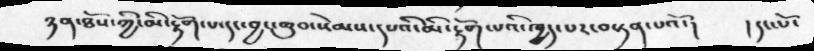ཉན་ཐོས་ཀྱི་མི་རྟོག་པ་དང་བྱང་ཆུབ་སེམས་དཔའི་མི་རྟོག་པའི་ཁྱད་པར་བསྟན་པའོ་།  །དང་པོ་
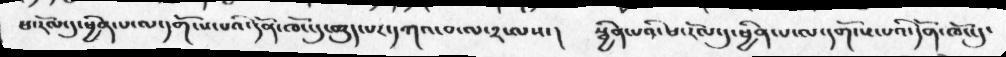ཕ་རོལ་དུ་ཕྱིན་པ་ལ་དགོངས་པའི་དོན་ཁོང་དུ་ཆུད་པར་དཀའ་བ་ལ་༢་ལས་།     སྦྱིན་པའི་ཕ་རོལ་དུ་ཕྱིན་པ་ལ་དགོངས་པའི་དོན་ཁོང་དུ་
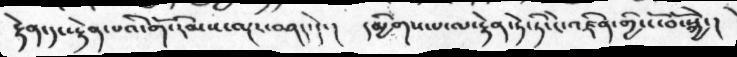རྟེན་དང་རྟེན་པའི་གོ་རིམས་ལྔར་བཤད་དེ་།      དམྱིགས་པ་ལ་རྟེན་ཏེ་ཏི་ངེ་འཛིན་གྱི་ངོ་བོ་སྐྱེ་།
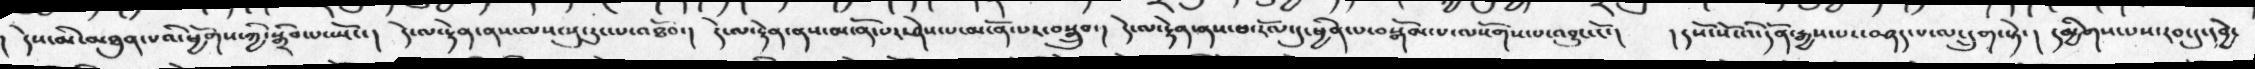། དེས་མི་མཐུན་པའི་ཕྱོགས་ཀྱི་སྒྲིབ་པ་སྤོང་།    དེ་ལ་རྟེན་ནས་ལས་སུ་རུང་པ་འཐོབ་།   དེ་ལ་རྟེན་ནས་མངོན་པར་ཤེས་པ་མངོན་པར་བསྒྲུབ་།    དེ་ལ་རྟེན་ནས་ཕ་རོལ་དུ་ཕྱིན་པ་བསྒོམ་པ་ལསོགས་པ་འབྱུང་ངོ་།     །དསོ་སོ་འི་དོན་རྒྱས་པར་བཤད་པ་ལ་དྲུག་སྟེ་།   དམྱིགས་པས་རབ་དུ་དབྱེ་
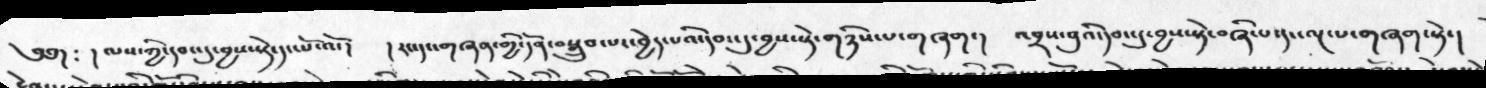༄༅།  ༴  ། ལས་ཀྱི་དབང་དུ་བྱས་སྟེ་དང་པོ་འོ་།    ། རང་དང་གཞན་གྱི་དོན་བསྒྲུབ་པར་བྱེད་པའི་དབང་དུ་བྱས་སྟེ་གཉིས་པ་གཞག་།   འབྲས་བུའི་དབང་དུ་བྱས་སྟེ་བཞི་པ་དང་ལྔ་པ་གཞག་སྟེ་།
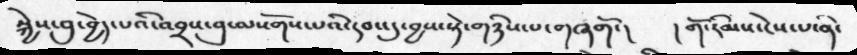སྐྱེས་བུ་བྱེད་པའི་འབྲས་བུ་ལསོགས་པའི་དབང་དུ་བྱས་སྟེ་གཉིས་པ་གཞགོ་།   །གོ་རིམས་ངེས་པ་ནི་
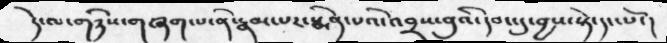དེ་ལ་གཉིས་གཞག་པ་ནི་རྣམ་པར་སྨིན་པའི་འབྲས་བུའི་དབང་དུ་བྱས་སྟེ་དང་པོ་།
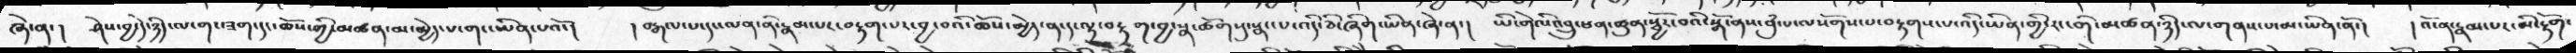ཞེ་ན་།  ཤེས་བྱ་དེ་ཉིད་ལ་གང་ཟག་དང་ཆོས་ཀྱི་མཚན་མ་མྱེད་པ་གང་ཡིན་པའོ་།   །བརྒལ་པ་དང་ལན་ནི་རྣམ་པར་བརྟག་པར་བྱ་བའི་ཆོས་མྱེད་ན་ད་ལྟ་བརྟག་བྱ་སྣ་ཚོགསུ་སྣང་པ་འདི་ཅི་ཞིག་ཡིན་ཞེ་ན་།  ཡི་གེའི་འབྲུ་ཕན་ཚུན་སྦྱོར་བའི་སྒོ་ནས་བུཾ་པ་ལསོགས་པ་བརྟགས་པ་འདི་ཡིན་གྱི་རང་གི་མཚན་ཉིད་ལ་གནས་པ་མ་ཡིན་ནོ་།  །འོ་ན་རྣམ་པར་མི་རྟོག་
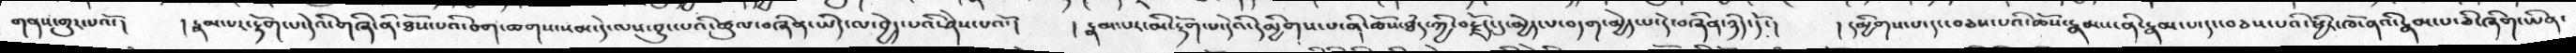གནས་གྱུར་པའོ་།   །རྣམ་པར་རྟོག་པ་དེའི་གཞི་ནི་ཐོས་པའི་བག་ཆགས་སམ་དེ་ལས་བྱུང་པའི་ཚུལ་བཞིན་ཡིད་ལ་བྱེད་པའི་ཤེས་པའོ་།  ། རྣམ་པར་མི་རྟོག་པ་དེའི་དམྱིགས་པ་ནི་ཆོས་ཐདཾ་ཀྱི་བརྗོད་དུ་མྱེད་པ་བདག་མྱེད་པ་དེ་བཞིན་ཉིད་དོ་།  །དམྱིགས་པ་དང་བཅས་པའི་ཆོས་རྣམ་ནི་རྣམ་པ་དང་བཅས་པའི་ཕྱིར་ཁོ་ནའི་རྣམ་པ་ཅི་ཞིག་ཡིན་
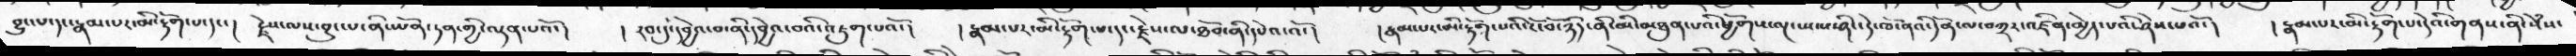བྱུང་པ་དང་རྣམ་པར་མི་རྟོག་པ་དང་།  རྗེས་ལས་བྱུང་པ་ནི་ཡོན་ཏན་གྱི་ལྡན་པའོ་།  །རབ་དུ་དབྱེའ་བ་ནི་དབྱེའ་བའི་འཇུག་པའོ་།  །རྣམ་པར་རྟོག་པ་དང་རྗེས་ལ་ཐོབ་ནི་དཔེའ་འོ་།  ། རྣམ་པར་མི་རྟོག་པའི་ངོ་བོ་ཉིད་ནི་མཐུན་པའི་ཕྱོགས་ལྔ་སྤངས་ཤིང་དེ་ཁ་ནའི་དོན་ལ་བཀྲར་འཛིན་མྱེད་པའི་ཤེས་པའོ་།  །རྣམ་པར་མི་རྟོག་པ་དེའི་གནས་ནི་སེཾས་
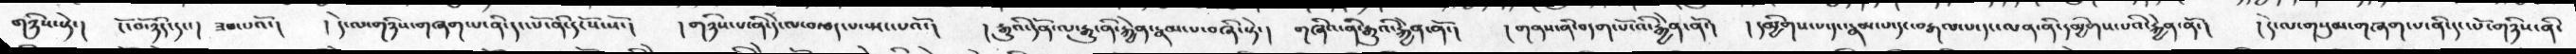གཉིས་སྟེ་།    ངོ་བོ་ཉིད་དང་།   ཟབ་པའོ་།    ། དེ་ལ་གཉིས་གཞག་པ་ནི་དང་པོ་ནི་དངོས་སོ་།   ། གཉིས་པ་ནི་དེ་ལ་བརྩད་པ་སྤང་པའོ་།   ། རྒྱུའི་དོན་ལ་རྒྱུ་ནི་རྐྱེན་རྣམ་པ་བཞི་སྟེ་།   གཞིའ་ནི་རྒྱུའི་རྐྱེན་ནོ་།    ། གནས་ནི་བདག་པོ་འི་རྐྱེན་ནོ་།   ། དམྱིགས་པ་དང་རྣམ་པ་དང་བརྒལ་པ་དང་ལན་ནི་དམྱིགས་པའི་རྐྱེན་ནོ་།    ། དེ་ལ་གསུམ་གཞག་པ་ནི་དང་པོ་གཉིས་ནི་
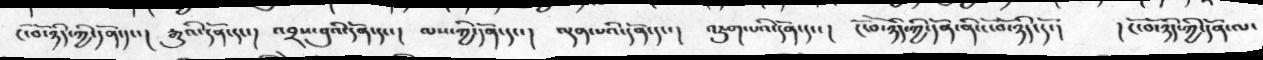ངོ་བོ་ཉིད་ཀྱི་དོན་དང་།   རྒྱུའི་དོན་དང་།   འབྲས་བུའི་དོན་དང་།   ལས་ཀྱི་དོན་དང་།   ལྡན་པའི་དོན་དང་།   འཇུག་པའི་དོན་དང་།  ངོ་བོ་ཉིད་ཀྱི་དོན་ནི་ངོ་བོ་ཉིད་དོ་།   ། ངོ་བོ་ཉིད་ཀྱི་དོན་ལ་
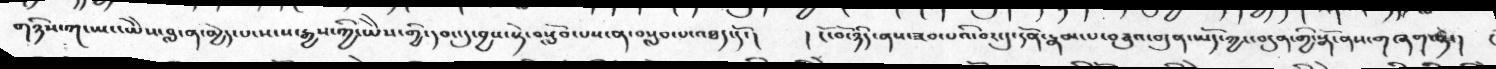གཉིས་ཀ་ཡང་ཡཻས་བླ་ན་མྱེད་པ་སངས་རྒྱས་ཀྱི་ཡཻས་གྱི་དབང་དུ་བྱས་སྟེ་བསློབ་པས་ན་བསླབ་པ་འཐད་དོ་།   ། ངོ་བོ་ཉིད་ནས་ཟབ་པའི་བར་དུ་དོན་རྣམ་པ་བཅུའ་བདུན་ཡོད་ཀྱང་བདུན་གྱི་སྒོ་ནས་གཞག་སྟེ་།
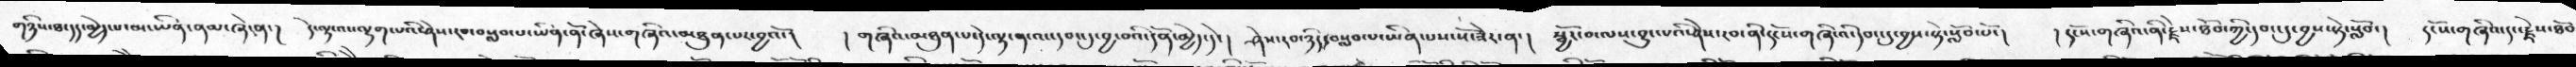གཉིས་ཐ་དད་མྱེད་པ་མ་ཡིན་ནམ་ཞེ་ན་།    དེ་ལྟ་འང་ལྷག་པའི་ཤེས་རབ་བསླབ་པ་ཡིན་ནོ་ཞེས་གཞིའ་མཐུན་པར་བྱའོ་།     ། གཞིའ་མཐུན་པ་དེ་ལྟ་ན་འང་དབང་དུ་བྱ་བའི་དོན་མྱེད་དེ་།   ཤེས་རབ་ཉིད་བསླབ་པ་ཡིན་པས་སོ་ཟེར་ན་།   སྦྱོར་བ་ལས་བྱུང་པའི་ཤེས་རབ་ནི་དངོས་གཞི་འི་དབང་དུ་བྱས་སྟེ་སློབ་པོ་།    ། དངོས་གཞིའ་ནི་རྗེས་ཐོབ་ཀྱི་དབང་དུ་བྱས་སྟེ་སློབ་།    དངོས་གཞིའ་དང་རྗེས་ཐོབ
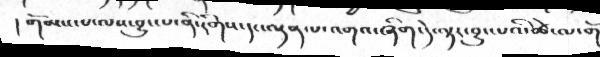། གོམས་པ་ལས་བྱུང་པ་ནི་དགེས་དང་ལྡན་པ་འགའ་ཞིག་དེ་ལྟར་བྱུང་པའི་ཚེ་ལ་གོ
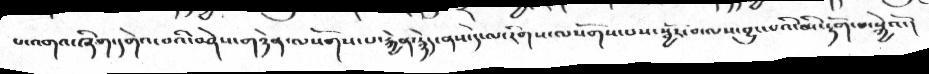པ་འགའ་ཞིག་དགེའ་བའི་བཤེས་གཉེན་ལསོགས་པ་རྐྱེན་རྙེད་ནས་དེ་མ་རིགས་ལསོགས་པས་སྦྱོར་བ་ལས་བྱུང་པའི་མི་རྟོག་པ་སྐྱེའོ་།
